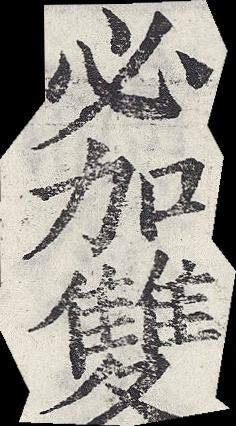必加雙
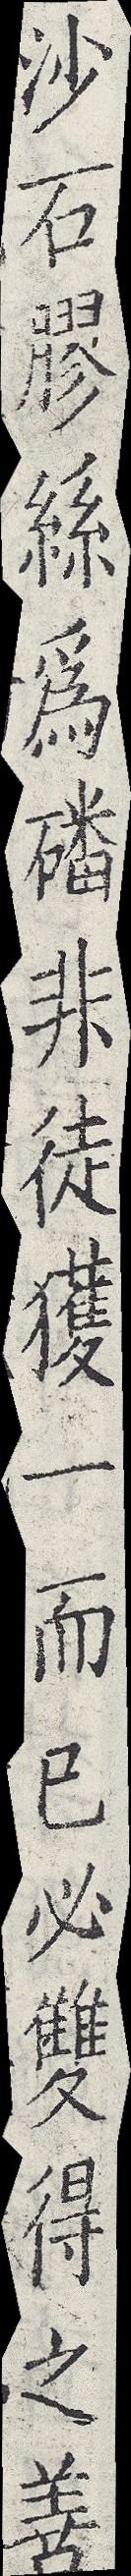沙石膠絲為磻非徒獲一而已必雙得之善
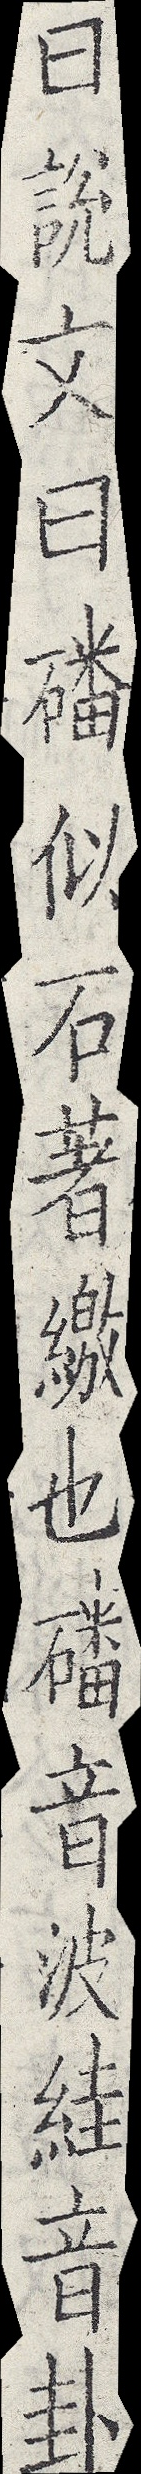曰說文曰磻似石著繳也磻音波絓音卦
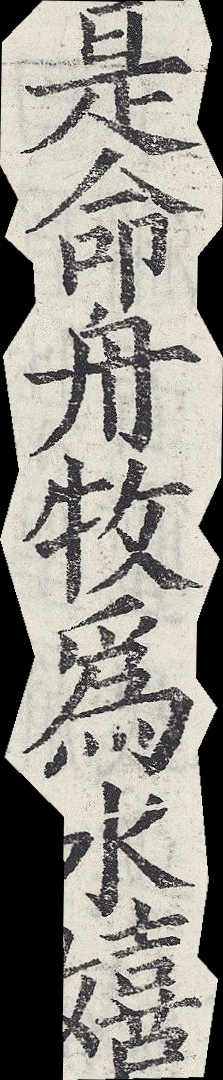是命舟牧為水嬉
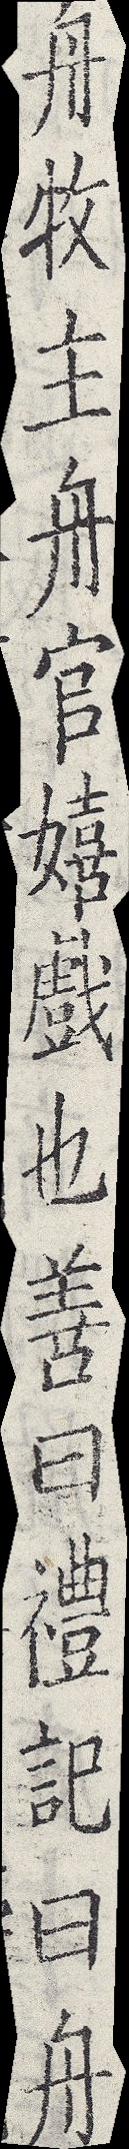舟牧主舟官嬉戲也善曰禮記曰舟
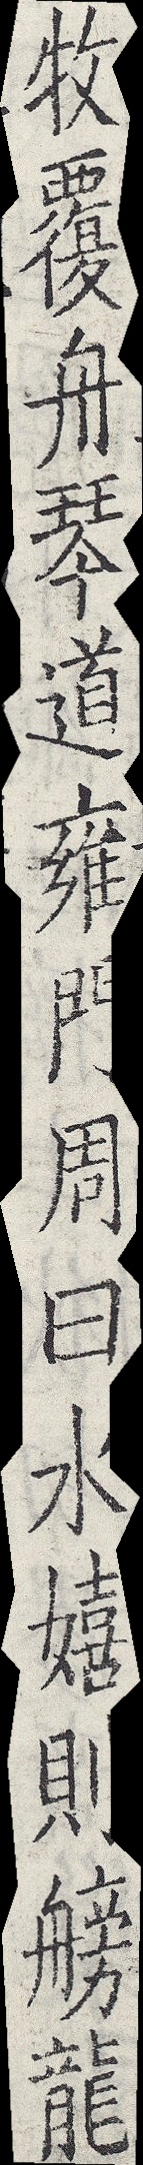牧覆舟琴道雍門周曰水嬉則艕龍
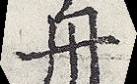舟
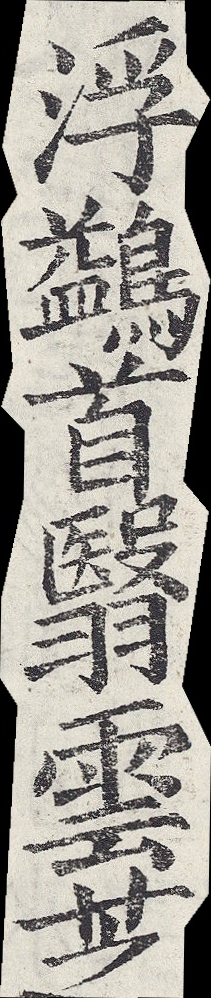浮鷁首翳雲芝
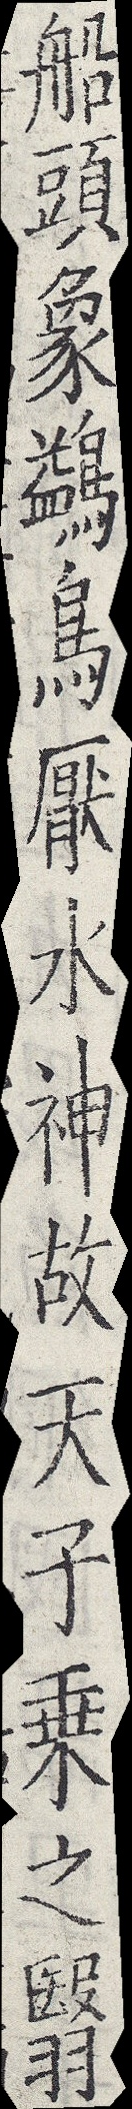船頭象鷁鳥厭水神故天子乘之翳
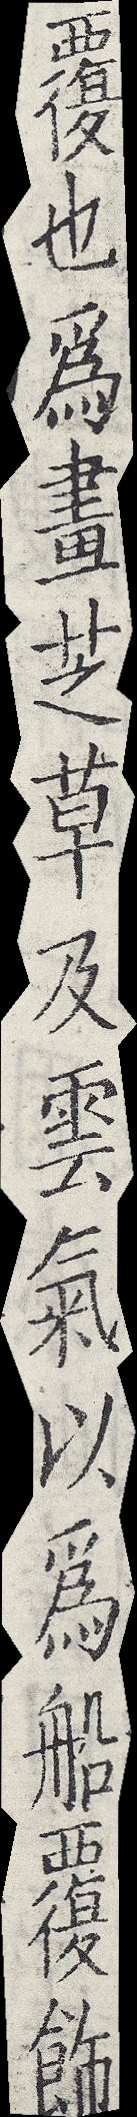覆也為畫芝草及雲氣以為船覆飾
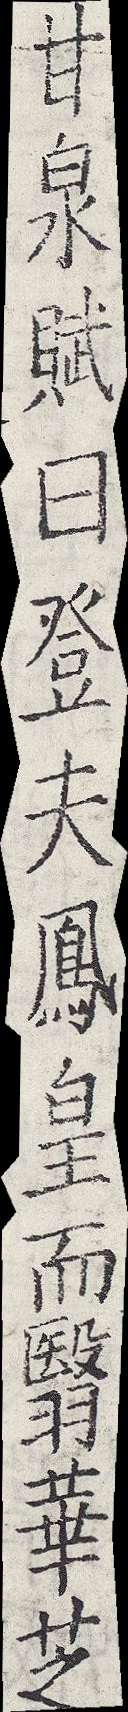甘泉賦曰登夫鳳皇而翳華芝
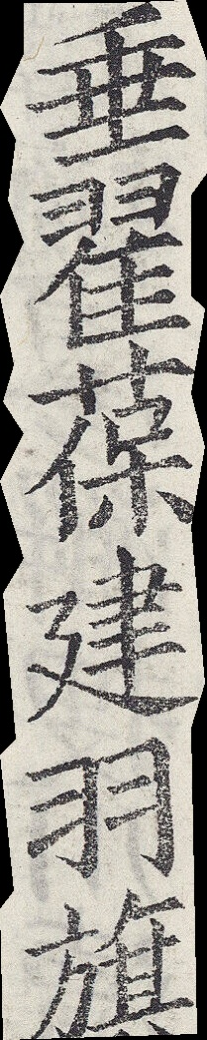垂翟葆建羽旗
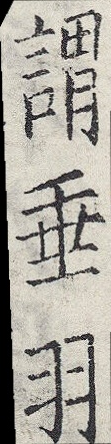謂垂羽
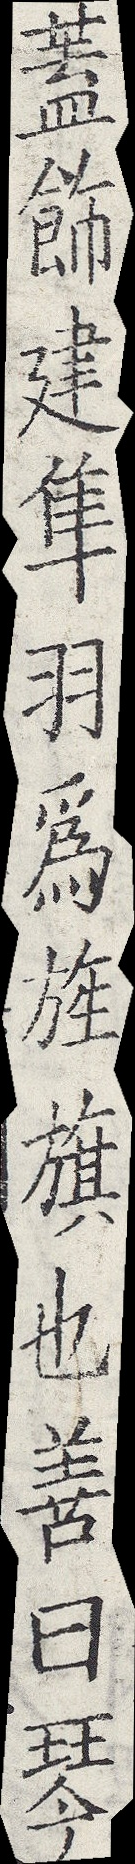蓋飾建隼羽為旌旗也善曰琴
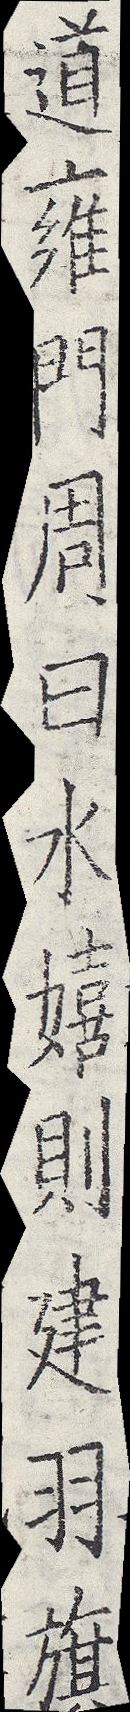道雍門周曰水嬉則建羽旗
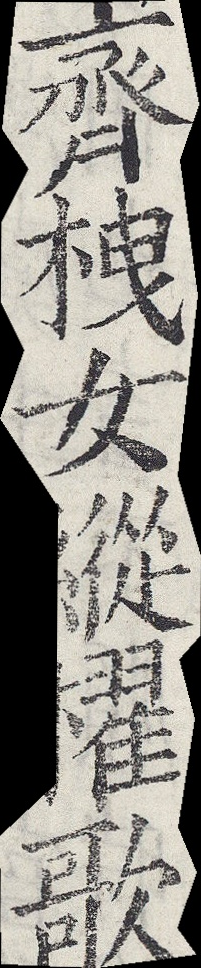齊栧女縱櫂歌
